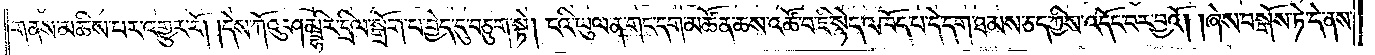གནས་མཆིས་པར་འགྱུར་རོ། །དེས་ཀོའུ་ཤམྦྷིར་དྲིལ་སྒྲོག་པ་བྱེད་དུ་བཅུག་སྟེ། ངའི་ཡུལ་ན་གང་དག་མཚོན་ཆས་འཚོ་བ་ཇི་སྙེད་འཁོད་པ་དེ་དག་ཐམས་ཅད་ཀྱིས་འདོང་བར་བྱའོ། །ཞེས་བསྒོས་ཏེ་དེ་ནས་
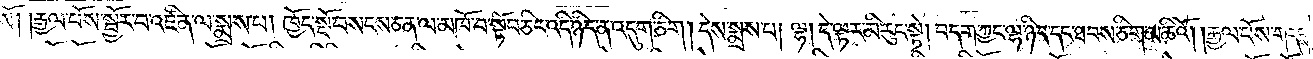སོ། །རྒྱལ་པོས་སྦྱོར་བ་འཛིན་ལ་སྨྲས་པ། ཁྱོད་སྔོ་བསངས་ཅན་ལ་མཁོ་བ་སྟོབ་ཅིང་འདི་ཉིད་ན་འདུག་ཅིག །དེས་སྨྲས་པ། ལྷ། དེ་ལྟར་མི་རུང་སྟེ། བདག་ཀྱང་ལྷ་ཉིད་དང་ཐབས་ཅིག་མཆིའོ། །རྒྱལ་པོས་གདངས་
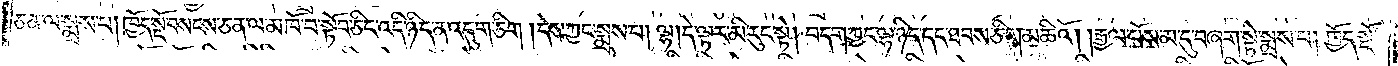ཅན་ལ་སྨྲས་པ། ཁྱོད་སྔོ་བསངས་ཅན་ལ་མཁོ་བ་སྟོབ་ཅིང་འདི་ཉིད་ན་འདུག་ཅིག །དེས་ཀྱང་སྨྲས་པ། ལྷ། དེ་ལྟར་མི་རུང་སྟེ། བདག་ཀྱང་ལྷ་ཉིད་དང་ཐབས་ཅིག་མཆིའོ། །རྒྱལ་པོས་མ་དུ་བཞག་སྟེ་སྨྲས་པ། ཁྱོད་སྔོ་
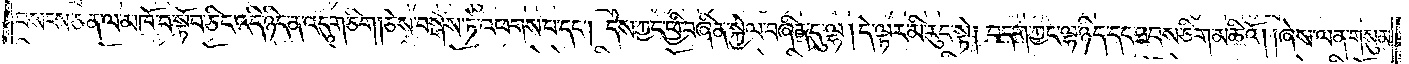བསངས་ཅན་ལ་མཁོ་བ་སྟོབ་ཅིང་འདི་ཉིད་ན་འདུག་ཅིག །ཅེས་བསྒོས་ཏེ་འཕགས་པ་དང༌། དེས་ཀྱང་ཕྱི་བཞིན་སྐྱེལ་བཞིན་དུ་ལྷ། དེ་ལྟར་མི་རུང་སྟེ། བདག་ཀྱང་ལྷ་ཉིད་དང་ཐབས་ཅིག་མཆིའོ། །ཞེས་ལན་གསུམ་
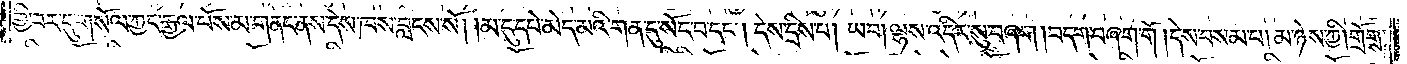གྱི་བར་དུ་གསོལ་ཀྱང་རྒྱལ་པོས་མ་གནང་ནས་དེས་ཁས་བླངས་སོ། །མ་དུ་དཔེ་མེད་མའི་གན་དུ་སོང་བ་དང༌། དེས་དྲིས་པ། ཡབ། ལྷས་འདིར་སུ་བཞག །བདག་བཞག་གོ །དེས་བསམ་པ། མ་ཉེས་ཀྱི། གྲོགས་
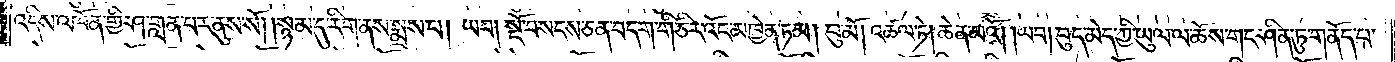འདིས་འཁོན་གྱི་ཤ་གླན་པར་ནུས་སོ། །སྙམ་དུ་རིག་ནས་སྨྲས་པ། ཡབ། སྔོ་བསངས་ཅན་བདག་གི་ཅིར་འོང་མཁྱེན་ཏམ། བུ་མོ། འཚལ་ཏེ། ཆེན་མའོ། །ཡབ། བུད་མེད་ཀྱི་ཡུལ་ལ་ཆོས་གང་ཤིན་ཏུ་གནོད་པ་
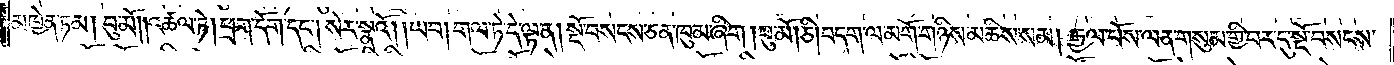མཁྱེན་ཏམ། བུ་མོ། །འཚལ་ཏེ། ཕྲག་དོག་དང༌། སེར་སྣའོ། །ཡབ། གལ་ཏེ་དེ་ལྟ་ན། སྔོ་བསངས་ཅན་ཁུམ་ཞིག །བུ་མོ། ཅི། བདག་ལ་མགོ་གཉིས་མཆིས་སམ། རྒྱལ་པོས་ལན་གསུམ་གྱི་བར་དུ་སྔོ་བསངས་
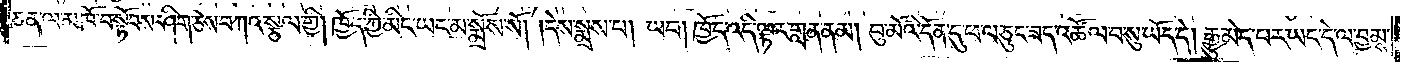ཅན་ལ་མཁོ་བ་སྟོབས་ཤིག་ཅེས་བཀའ་སྩལ་གྱི། ཁྱོད་ཀྱི་མིང་ཡང་མ་སྨྲོས་སོ། །དེས་སྨྲས་པ། ཡབ། ཁྱོད་འདི་ལྟར་གླན་ནམ། བུ་མོའི་དོན་དུ་ཕ་ལ་ཅུང་ཟད་འཚོལ་བ་སུ་ཡོད་དེ། རྒྱུ་མེད་པར་ཡང་དེ་ལ་བྱམས་
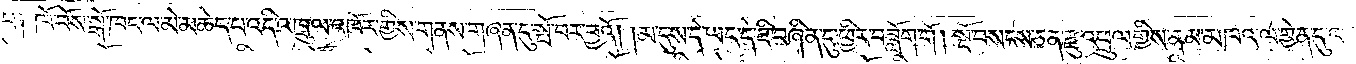པ༑ ཁོ་བོས་སྒོ་ཁང་ལ་མེ་མཆེད་པ་འདི་འཁྲུལ་འཁོར་གྱིས་གནས་གཞན་དུ་སྤོ་བར་བྱའོ། །མ་དུས་དེ་ཡང་དེ་ཇི་བཞིན་དུ་ཕྱིར་བཟློག་གོ། །སྔོ་བསངས་ཅན་རྫུ་འཕྲུལ་གྱིས་ནམ་མཁའ་ལ་གྱེན་དུ་འ
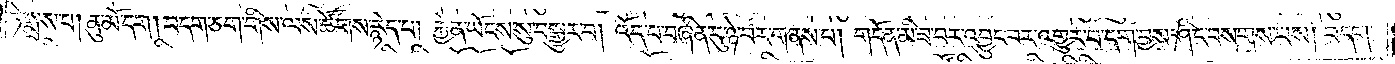ཏེ་སྨྲས་པ། ནུ་མོ་དག །བདག་ཅག་གིས་ལས་ཚོགས་རྙེད་པ། རྐྱེན་ཡོངས་སུ་བསྒྱུར་བ། འོད་པ་བཞིན་དུ་ཉེ་བར་གནས་པ། གདོན་མི་ཟ་བར་འབྱུང་བར་འགྱུར་བ་དག་བྱས་ཤིང་བསགས་པས། བདག་
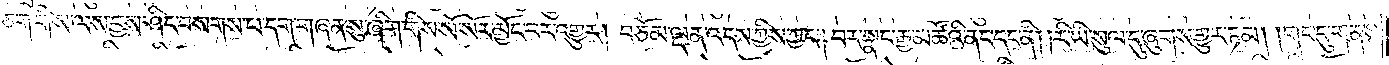ཅག་གིས་ལས་བྱས་ཤིང་བསགས་པ་དག་གཞན་སུ་ཞིག་གིས་སོ་སོར་མྱོང་བར་འགྱུར། བཅོམ་ལྡན་འདས་ཀྱིས་ཀྱང༌། བར་སྣང་རྒྱ་མཚོའི་ནང་དང་ནི། །རི་ཡི་སུལ་དུ་ཞུགས་གྱུར་ཏམ། །གང་དུ་གནས་
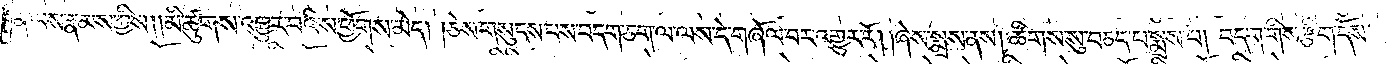ན་ལས་རྣམས་ཀྱིས། །མི་ཚུགས་འགྱུར་བའི་ས་ཕྱོགས་མེད། །ཅེས་གསུངས་པས་བདག་ཅག་ལ་ལས་དེ་གཞོལ་བར་འགྱུར་རོ། །ཞེས་སྨྲས་ནས། ཚིགས་སུ་བཅད་པ་སྨྲས་པ། བདག་གིས་རྩིག་དོས་
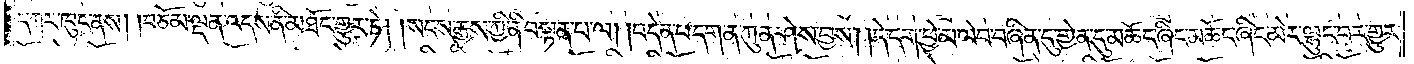དཀར་ཁུང་ནས། །བཅོམ་ལྡན་འདས་ནི་མཐོང་གྱུར་ཏེ། །སངས་རྒྱས་ཀྱི་ནི་བསྟན་པ་ལ། །བདེན་པ་དག་ན་ཀུན་ཤེས་བྱས། །དེ་དག་ཕྱེ་མ་ལེབ་བཞིན་དུ་གྱེན་དུ་མཆོང་ཞིང་མཆོང་ཞིང་མེར་ལྷུང་བར་གྱུར་
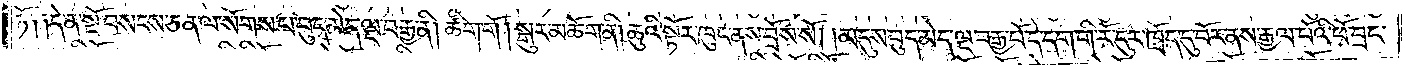ཏོ༑ ༑དེ་ན་སྔོ་བསངས་ཅན་ལ་སོགས་པ་བུད་མེད་ལྔ་བརྒྱ་ནི། ཚིག་གོ །སྒུར་མཆོག་ནི། ཆུའི་སྟོར་ཁུང་ནས་བྲོས་སོ། །མ་དུས་བུད་མེད་ལྔ་བརྒྱ་པོ་དེ་དག་གི་རོ་དུར་ཁྲོད་དུ་བོར་ནས་རྒྱལ་པོའི་ཕོ་བྲང་
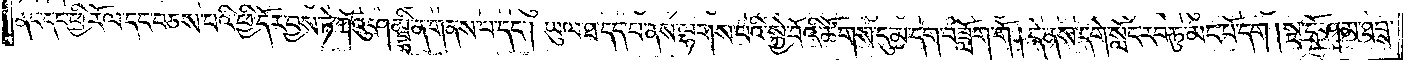ནང་དང་ཕྱི་རོལ་དང་བཅས་པའི་ཕྱིར་དོར་བྱས་ཏེ་ཀོའུ་ཤམྦྷི་ན་གནས་པ་དང༌། ཡུལ་ཐ་དད་པ་ནས་ལྷགས་པའི་སྐྱེ་བོའི་ཚོགས་དུ་མ་དག་བཟློག་གོ །དེ་ནས་དགེ་སློང་རབ་ཏུ་མང་པོ་དག །སྔ་དྲོ་ཤམ་ཐབས་
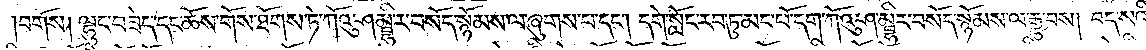བགོས། ལྷུང་བཟེད་དང་ཆོས་གོས་ཐོགས་ཏེ་ཀོའུ་ཤམྦྷི་ར་བསོད་སྙོམས་ལ་ཞུགས་པ་དང༌། དགེ་སློང་རབ་ཏུ་མང་པོ་དག་ཀོའུ་ཤམྦྷིར་བསོད་སྙོམས་ལ་རྒྱུ་བས། བད་སའི་
